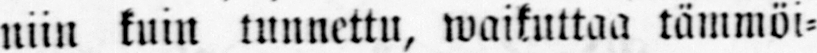niin kuin tunnettu, waikuttaa tämmöi-
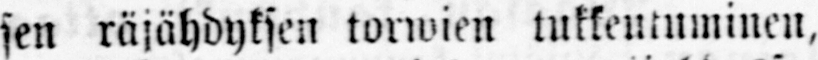sen räjähdyksen torwien tukkeutuminen,
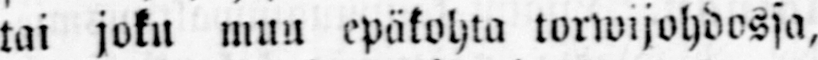tai joku muu epäkohta torwijohdossa,
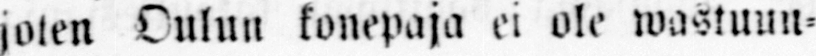joten Oulun konepaja ei ole wastuun-
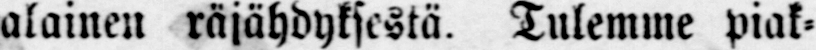alainen räjähdyksestä. Tulemme pia-
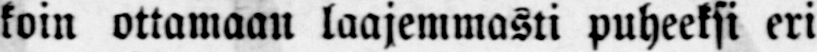koin ottamaan laajemmasti puheeksi eri
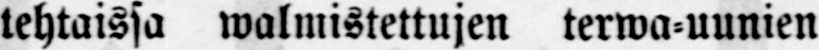tehtaissa walmistettujen terwa-uunien
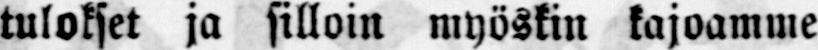tulokset ja silloin myöskin kajoamme
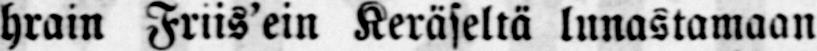hrain Friis'ein Keräseltä lunastamaan
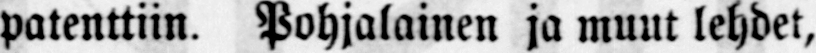patenttiin. Pohjalainen ja muut lehdet,
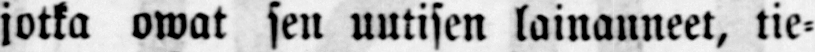jotka owat sen uutisen lainanneet, tie-
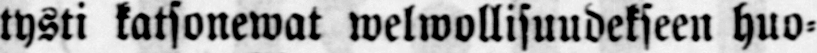tysti katsonewat welwollisuudekseen huo-
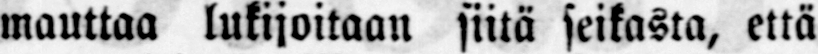mauttaa lukijoitaan siitä seikasta, että
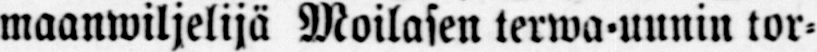maanwiljelijä Moilasen terwa-uunin tor-
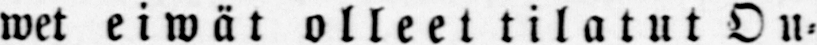wet eiwät olleet tilatut Ou-
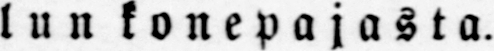lun konepajasta.
